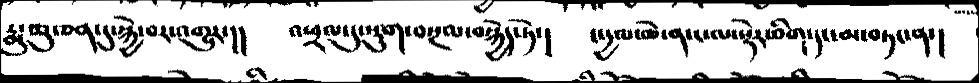རྨུ་ཆུ་ཅན་དུ་སྐྱེ་བར་འགྱུར་།།  འཕྲལ་དུ་སྡུག་བསྔལ་སྐྱེད་ཏེ་།  ང་དྱལ་ཆེ་ན་ང་ལ་སྡེར་བིག་དང་མ་བཏང་ན་།
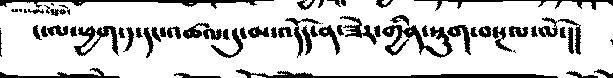ང་ལ་ཕྱག་༡་དང་འཚལ་དུ་མ་འདོད་ན་ཟེར་གྱིན་སྡུག་བསྔལ་ལོ་།།
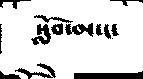སློབ་མ་ང་
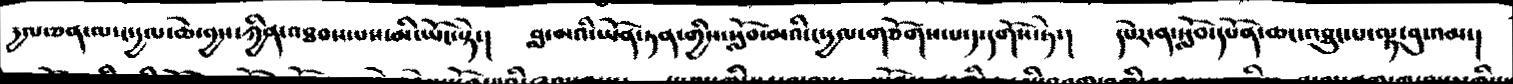དྱལ་ཅན་ལ་ང་དྱལ་ཆེ་བྱས་ཀྱིན་འཐབས་པས་མི་ཡོང་སྟེ་།   བླ་མའི་ཡོན་ཏན་གྱིས་སློབ་མའི་ང་དྱལ་གཅོག་པ་༡་དགོས་ཏེ་།    དཔེར་ན་སློབ་དཔོན་ཆང་འཐུང་པ་ལྟ་བུ་འམ་།
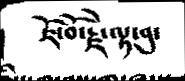ཇོ་བོ་རྗེ་ལྟ་བུ་
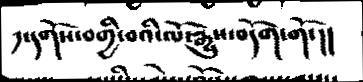ད་དགོས་བགྱི་བའི་ལོ་རྒྱུས་བདོག་གོ་།།
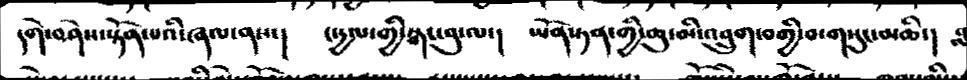དགེ་བཤེས་སྟོན་པའི་ཞལ་ནས་།  ང་དྱལ་གྱི་སྒང་བུ་ལ་།  ཡོན་ཏན་གྱི་ཆུ་མི་འབྲུག་བགྱི་བ་གསུང་མཆི་། བླ
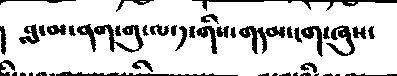།  བླ་མ་ནག་གུ་ལ་༡་གིས་གདམ་ངག་ཞུས་
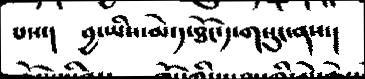པས་།  བྱ་ཡིས་མེ་༡་ཐོང་༡་གསུང་ནས་།
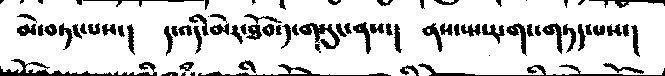མེ་བཏང་པས་།    ད་འདི་མེར་ཐོབ་༡་གསུང་ནས་།    ནས་ཡ་ར་གང་གཏད་པས་།
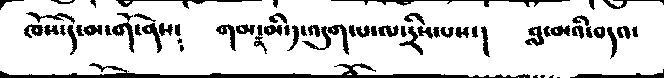ཁོས་དེ་མ་གོ་ནས༴   གམ་ན་མི་༡་འདུག་པ་ལ་དྲིས་པས་།      བླ་མའི་བདའ་
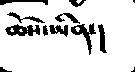ཆོས་ཡིན་།
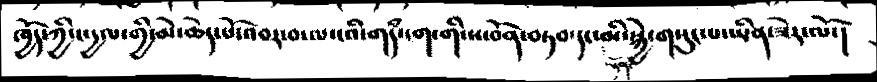ཁྱོད་ཀྱི་ང་དྱལ་གྱི་མེ་ཆེད་པོ་འབར་བ་ལ་ངའི་གདཾ་ངག་གི་ས་བོན་བཏབ་དདང་ཡོནྟ་མི་སྐྱེ་གསུང་པ་ཡིན་ཟེར་ལོ་།
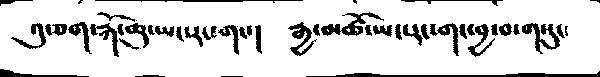འུ་ཅག་རྐོ་ཆུ་ཡང་རང་གང་།  རྒྱ་མཚོ་ཡང་རང་གང་བྱ་བ་གསུང་
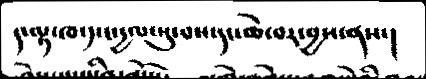ད་ལྟ་ཁ་༡་ང་དྱལ་སུ་པས་དང་ཆེ་བར་བྱས་ནས་།
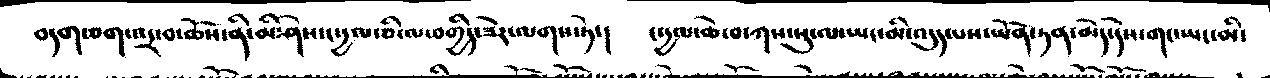བདག་ཅག་འདྲ་བ་ཆོས་ནི་མི་ཤེས་ང་དྱལ་ཅི་ལ་བགྱིད་ཟེར་ལགས་ཏེ་།  ང་དྱལ་ཆེ་བ་ཀས་སུ་ལ་ཡང་མི་འདུད་པས་ཡོན་ཏན་མེད་དེས་གང་ཡང་མི་
